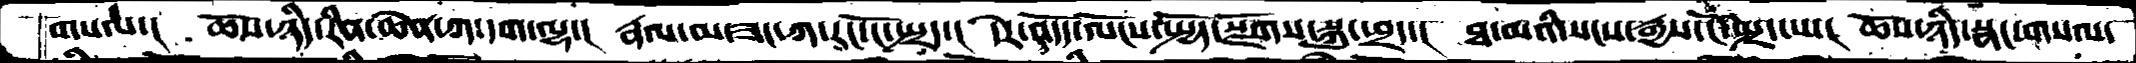གསལ་།  ཆོས་ཉིད་རིན་ཆེན་ཀ་དག་ལྷ་།  རྣལ་མ་ཟང་ཀ་རང་ངོ་སྤྲད་།  དེར་འདོད་ལོངས་སྤྱོད་སྫོགས་སྐུ་ཕྲད་།  ཐ་མའི་སངས་རྒྱས་ངོ་སྤྲད་པ་།  ཆོས་ཉིད་སྣང་གསལ་
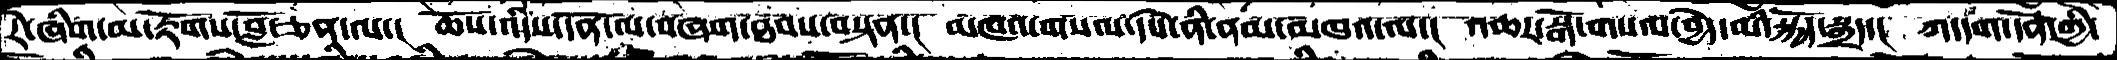རེ་ཞིག་མ་རྟོགས་བློ་ཅན་ལ་།  ཆོས་འདིས་དོན་ལ་བཞག་ཐབས་བསྟན་།  མཁས་གསལ་དཔེ་ནི་ནམ་མཁའ་ལ་།  འཆར་སྒོ་གསལ་བྱེད་མི་སྐྱོད་སྒྲད་།  ཀ་དག་དོན་གྱི་
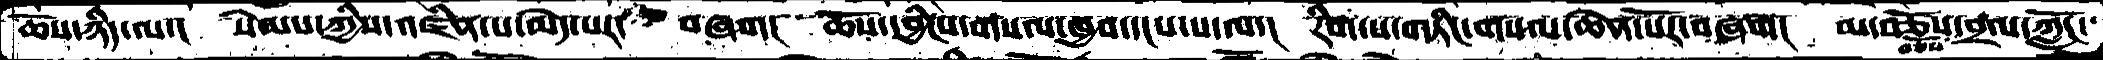ཆོས་ཉིད་ལ་། སེམས་ཀྱིས་འཛིན་པ་མེད་པར་ བཞག། ཆོས་དབྱིངས་གསལ་ཁྱབ་དངས་པ་ལ་། རིག་པ་གཏིང་གསལ་ཆེན་པོར་བཞག། མ་བཅོས་བཅོས་བྲལ་ཀློང་
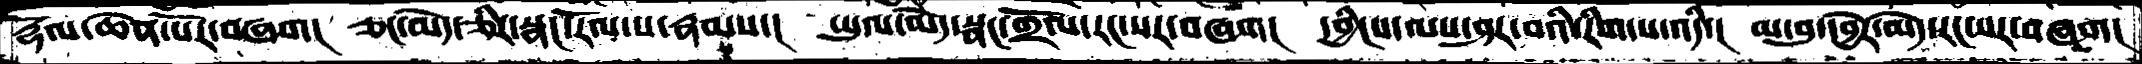རྡོལ་ཆེན་པོར་བཞག།  ཅང་མེད་ཅིར་སྣང་རོལ་པ་རྣམས་།  ཡུལ་མེད་སྣང་གྲོལ་རང་སར་བཞག།  དབྱིངས་ལས་ཤར་བའི་རིག་པ་འདི་།  མ་བུ་དབྱེར་མེད་རང་སར་བཞག།
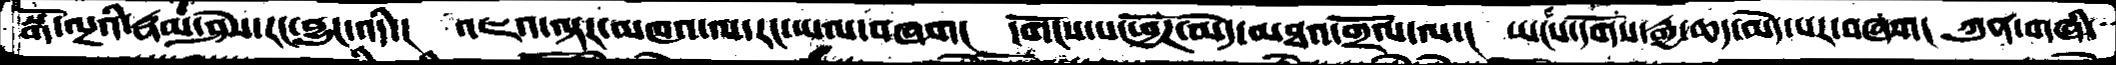སྒོ་ལྔའི་རྣམ་ཤེས་རང་བྱུང་འདི་།  འཇའ་ལྟར་མཁའ་ལ་རང་ཡལ་བཞག།  དགོངས་པ་ཕྱོཌ་མེད་མཐའ་གྲོལ་ལ་།  ཡངས་དགོས་རྒྱ་ཆད་མེད་པར་བཞག།  ཀུན་གཞི་
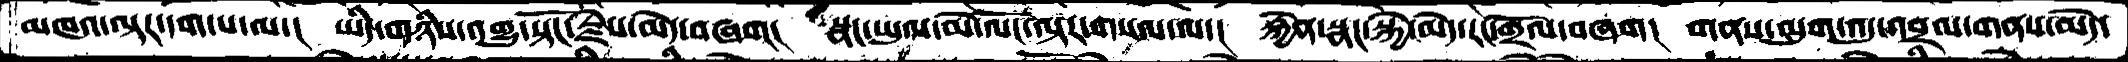མཁའ་ལྟར་དག་པ་ལ་།  ཡིད་གཉིས་འགྱུ་སྟོང་རྗེས་མེད་བཞག།  སྣང་ཡུལ་མེ་ལོང་ལྟར་གསལ་ལ་།  རྐྱེན་སྣང་སྐྱེ་མེད་རང་གྲོལ་བཞག། གནས་ལུག་འདུ་འབྲལ་གནས་མེད་
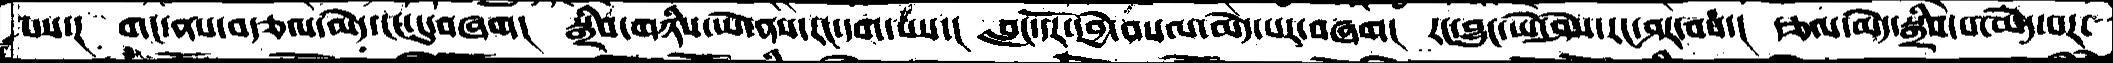པས་།  གང་ནས་བརྩལ་མེད་ངང་དུ་བཞག།  སྒྲིབ་གཉིས་ཡེ་ནས་རང་དག་པས་།  བླང་དོར་དབྱེ་བསལ་མེད་པར་བཞག།  རང་བྱུང་ཡེ་ཤེས་རང་ཤར་བས་།  རྩལ་མེད་སྒྲིབ་པ་མེད་པར་
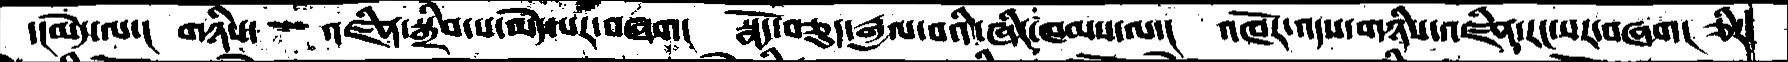དངམེད་ལ་།  གཉིས་   འཛིན་སྒྲིབ་པ་མེད་པར་བཞག།  སྣོད་བཅུད་རྒྱལ་བའི་ཞིང་ཁམས་ལ་།  འཁོར་འདས་གཉིས་འཛིན་རང་སར་བཞག། ཅིར
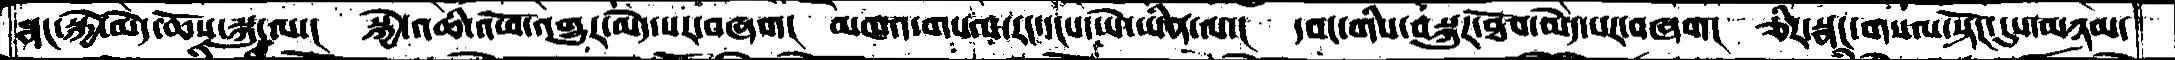སྣང་སྐྱེ་མེད་ཆོས་སྐུ་ལ་།  སྐྱེ་འཆི་འཕོ་འགྱུར་མེད་པར་བཞག།  མཁའ་གསལ་རང་དངས་ཡེ་ཡིན་ལ་།  དབང་གིས་བསྐུར་ཐོབ་མེད་པར་བཞག།  ཅིར་སྣང་གསལ་སྟོང་དུས་མཉམ་
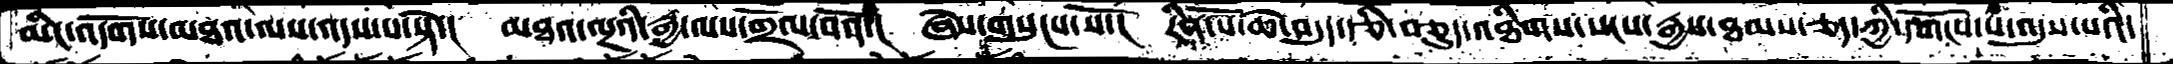མིང་འདོགས་མཐའ་ལས་འདས་པ་སྟེ་།  མཐའ་ལྔའི་རྒྱ་ལས་གྲོལ་བའོ་།  ཞེས་གསུངས་སོ་།  རིན་པོ་ཆེ་བདུད་རྩི་བཅུད་འཐིགས་སངས་རྒྱས་ཐམས་ཅད་ཀྱི་དགོངས་པ་འདུས་པའི་
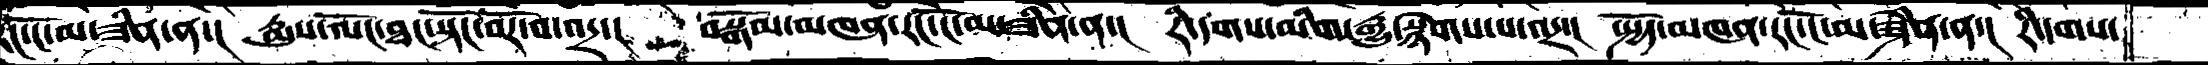རང་ངོ་མ་ཟིན་ན་།  རྨུས་ལོང་ཐང་སྟོང་བོར་བ་འདྲ་།  བསྒོམ་མཁན་རང་ངོ་མ་ཟིན་ན་།  རི་དགས་མིག་རྒྱུ་སྙེགས་པ་འདྲ་།  སྤྱོད་མཁན་རང་ངོ་མ་ཟིན་ན་།  རི་དགས་
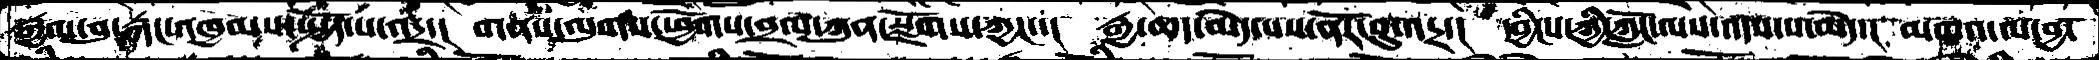རྒྱལ་བུ་རྐང་འཁྱམས་སྤྱོད་པ་འདྲ་།  གནས་ལུགས་ཕྱོགས་བྲལ་ཀུན་སྫོགས་ཀྱང་་།  རྒྱ་ཆད་མེད་པས་ནོར་བུ་འདྲ་།  དབྱིངས་ཀྱི་ཀློང་ལས་འདས་པ་མེད་།  མཁའ་ལ་བྱ་
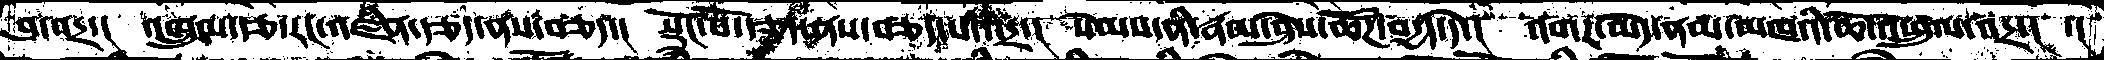བུ་འདྲ་།  འཁྲུལ་་རྩ་རང་འཛི་རྩད་ནས་བཅད་།  སྡོང་པོ་རྩད་ནས་བཅད་པ་འདྲ་།  སེམས་ནི་རྣམ་ཤེས་ཚོཌ་བདྱད་དེ་།  འགཌ་མེད་ནམ་མཁའི་ཆོ་འཕྲུལ་འདྲ་།  ་།
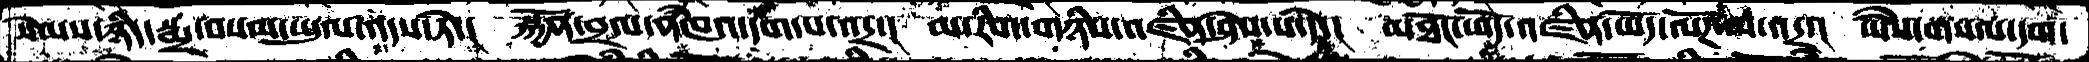སེམས་ཉིད་སྨྲ་བསམ་ཡུལ་འདས་ཏེ་།  སྐྱོན་བྲལ་ནཾཁའ་དག་པ་འདྲ་།  མ་རིག་གཉིས་འཛིན་ཤེས་པ་དེ་།  མཐོང་ཡོད་འཛིན་ཡོད་ལོཌ་པ་འདྲ་།  ཡཻས་གསལ་དག་
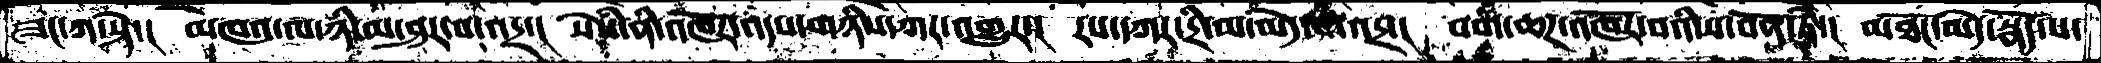ཟང་ཀ་སྟེ་།  མཁའ་ལ་ཉི་མ་ཤར་བ་འདྲ་།  སེཾས་ནི་འཁོར་འདས་གཉིས་ཀར་འགྱུར་།  རས་དཀར་དྲི་མ་མེད་པ་འདྲ་།  བག་ཆཌ་འཁོར་བའི་ས་བོན་ཏེ་།  མཐོང་མེད་སྣོད་པ་
